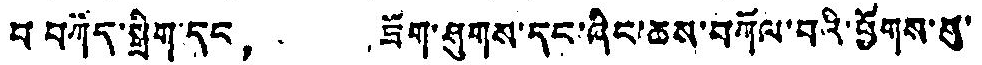པ བཀོད་སྒྲིག་དང， ཟོག་ཤུགས་དང་ཞིང་ཆས་བཀོལ་བའི་ཕྱོགས་སུ་
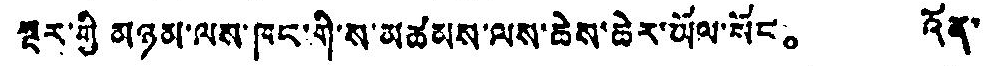སྡར་གྱི མཉམ་ལས་ཁང་གི་ས་མཚམས་ལས་ཆེས་ཆེར་ཡོལ་སོང。 འོན་
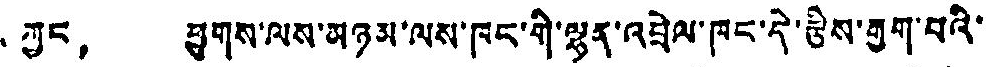ཀྱང， ཕྱུགས་ལས་མཉམ་ལས་ཁང་གི་ལྷན་འབྲེལ་ཁང་དེ་རྩིས་རྒྱག་པའི་
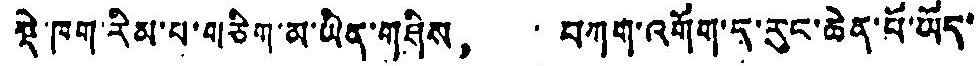སྡེ་ཁག་རིམ་པ་གཅིག་མ་ཡིན་གཤིས， བཀག་འགོག་ད་རུང་ཆེན་པོ་ཡོད་
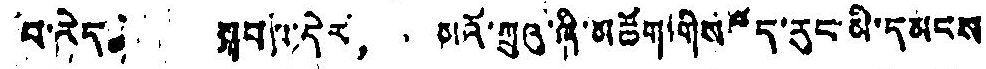བ་རེད。 སྐབས་དེར， མའོ་ཀྲུའུ་ཞི་མཆོག གིས་“ད་རུང་མི་དམངས་
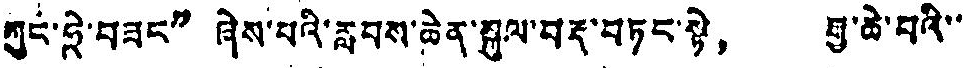ཀུང་ཧྲེ་བཟང་”ཞེས་པའི་རླབས་ཆེན་སྐུལ་བརྡ་བཏང་སྟེ， རྒྱ་ཆེ་བའི་་
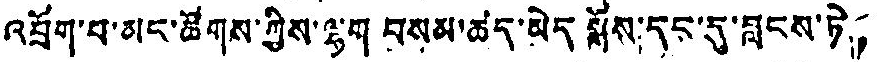འབྲོག་པ་མང་ཚོགས་ཀྱིས་ལྷག བསམ་ཚད་མེད སྒོས་དང་དུ་བླངས་ཏེ，
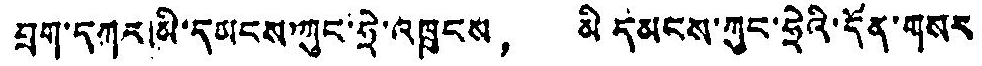བྲག་དཀར མི་དམངས་ཀུང་ཧྲེ་འཁྲུངས， མི དམངས་ཀུང་ཧྲེའི་དོན་གསར
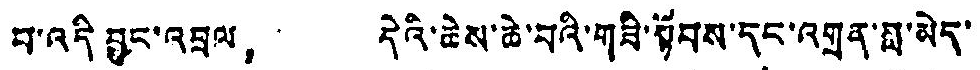བ་འདི བྱུང་འབྲལ， དེའི་ཆེས་ཆེ་བའི་གཟི་སྟོབས་དང་འགྲན་ཟླ་མེད་
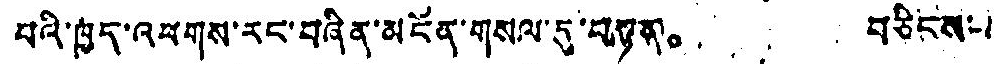པའི་ཁྱད་འཕགས་རང་བཞིན་མངོན་གསལ་དུ་བསྟན。 བཅིངས་
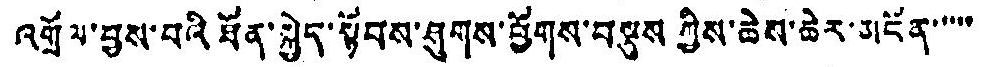འགྲོལ་བྱས་པའི ཐོན་སྐྱེད་སྟོབས་ཤུགས་ཕྱོགས་བསྡུས ཀྱིས་ཆེས་ཆེར་མངོན་་་་་
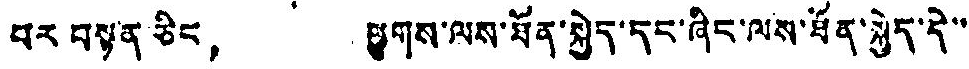པར བསྟན ཅིང， ཕྱུགས་ལས་ཐོན་སྐྱེད་དང་ཞིང་ལས་ཐོན་སྐྱེད་དེ་་
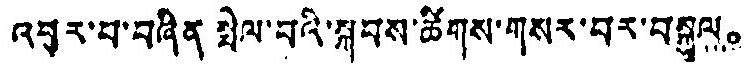འབུར་བ་བཞིན སྤེལ་བའི་སྐབས་ཚིགས་གསར་བར་བསྐྱུལ。
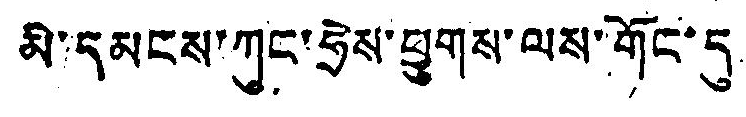མི་དམངས་ཀུང་ཧྲེས་ཕྱུགས་ལས་གོང་དུ
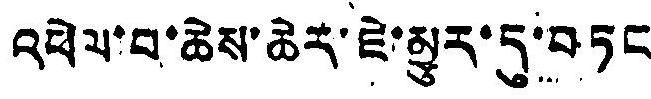འཕེལ་བ་ཆེས་ཆེར་ཇེ་མྱུར་དུ་བཏང
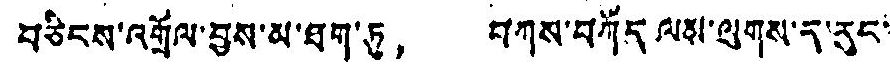བཅིངས་འགྲོལ་བྱས་མ་ཐག་ཏུ， བཀས་བཀོད ལས་ལུགས་ད་རུང་
